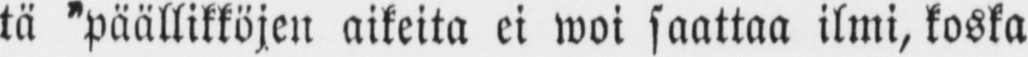tä ”päällikköjen aikeita ei woi saattaa ilmi, koska
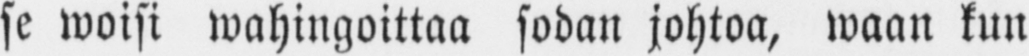se woisi wahingoittaa sodan johtoa, waan kun
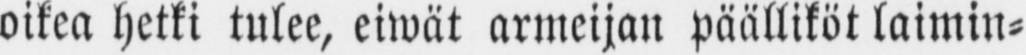oikea hetki tulee, eiwät armeijan päälliköt laimin-
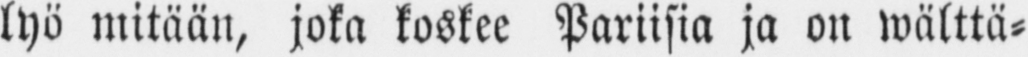lyö mitään, joka koskee Pariisia ja on wälttä-
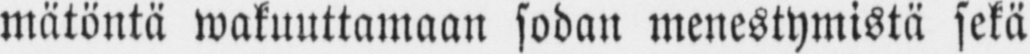mätöntä wakuuttamaan sodan menestymistä sekä
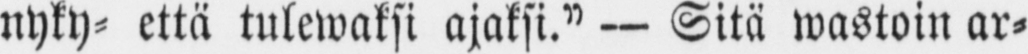nyky- että tulewaksi ajaksi” — Sitä wastoin ar-
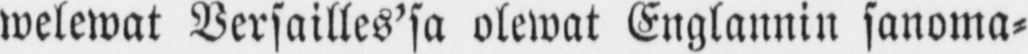welewat Versailles’sa olewat Englannin sanoma-
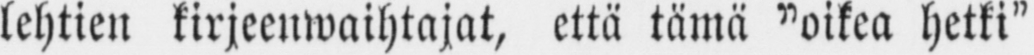lehtien kirjeenwaihtajat, että tämä ”oikea hetki”
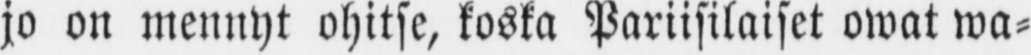jo on mennyt ohitse, koska Pariisilaiset owat wa-
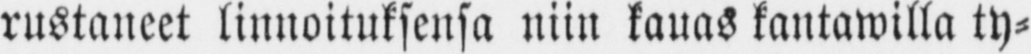rustaneet linnoituksensa niin kauas kantawilla ty-
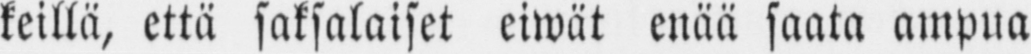keillä, että saksalaiset eiwät enää saata ampua
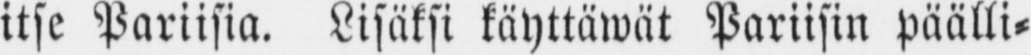itse Pariisia. Lisäksi käyttäwät Pariisin päälli-
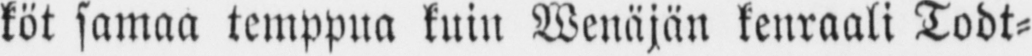köt samaa temppua kuin Wenäjän kenraali Todt-
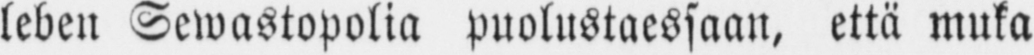leben Sewastopolia puolustaessaan, että muka
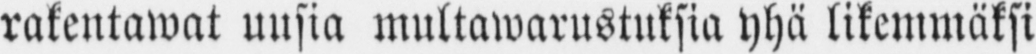rakentawat uusia multawarustuksia yhä likemmäksi
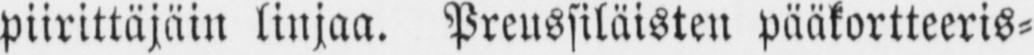piirittäjäin linjaa. Preussiläisten pääkortteeris-
